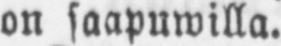on saapuwilla.
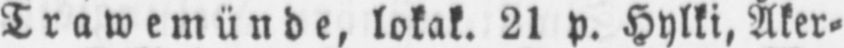Trawemünde, lokak. 21 p. Hylki, Åker-
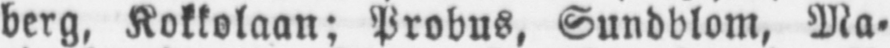berg, Kokkolaan; Probus, Sundblom, Ma-
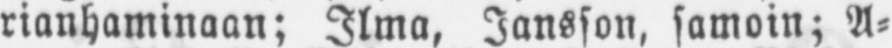rianhaminaan; Ilma, Jansson, samoin; A-
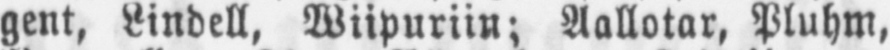gent, Lindell, Wiipuriin; Aallotar, Pluhm,
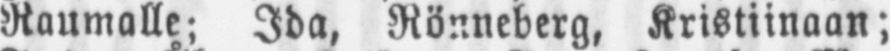Raumalle; Ida, Rönneberg, Kristiinaan;
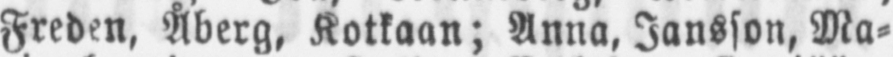Freden, Åberg, Kotkaan; Anna, Jansson, Ma-
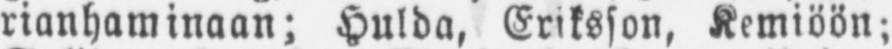rianhaminaan; Hulda, Eriksson, Kemiöön;
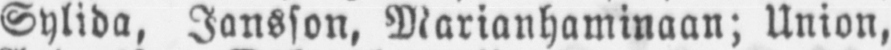Sylida, Jansson, Marianhaminaan; Union,
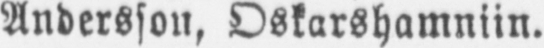Andersson, Oskarshamniin.
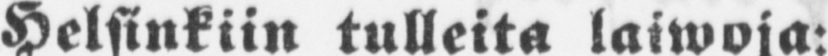Helsinkiin tulleita laiwoja:
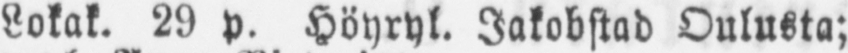Lokak. 29 p. Höyryl. Jakobstad Oulusta;
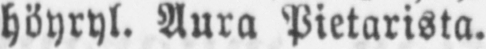höyryl. Aura Pietarista.
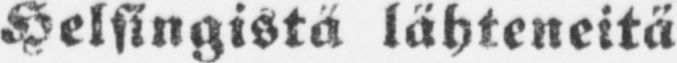Helsingistä lähteneitä
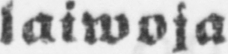laiwoja
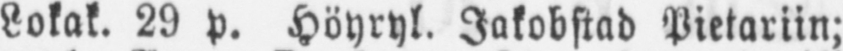Lokak. 29 p. Höyryl. Jakobstad Pietariin;
